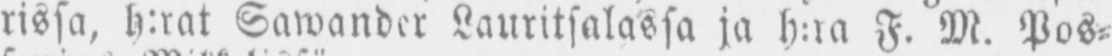rissa, h:rat Sawander Lauritsalassa ja h:ra F. M. Pos-
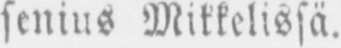senius Mikkelissä.
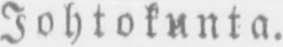Johtokunta.
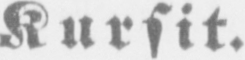Kursit.
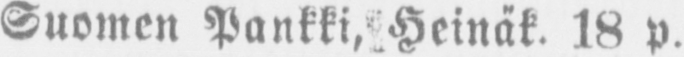Suomen Pankki, Heinäk. 18 p.
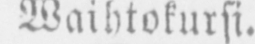Waihtokursi.
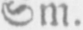Sm.
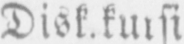Disk.kursi
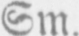Sm.
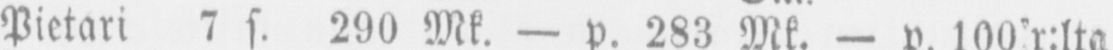Pietari 7 s. 290 Mk. — p. 283 Mk. - p.100 r:lta
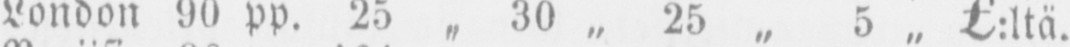London 90 pp. 25„ 30 „ 25 „ 5„ L:ltä„.
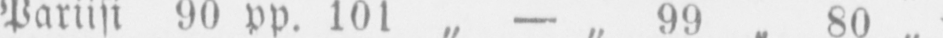Pariisi 90 pp. 101„-„ 99„ 80„
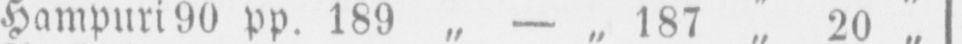Hampuri 90 pp. 189 „ - „ 187 „ 20„
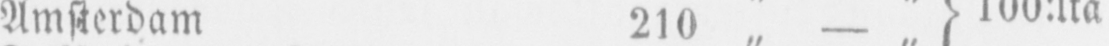Amsterdam 210 „ —„ 100:lta
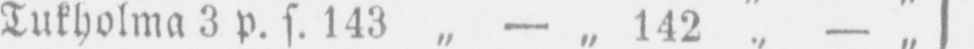Tukholma 3 p.s. 143 „— „ 142 „ —„
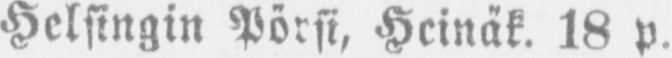Helsingin Pörsi, Heinäk. 18 p.
